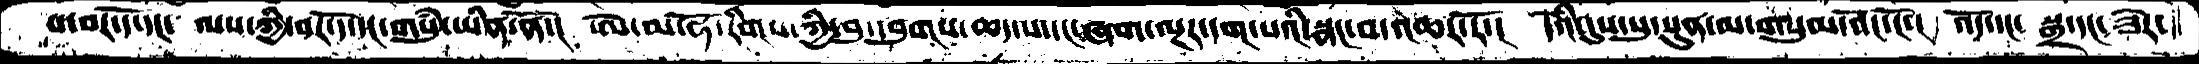པ་བར་དོ་དང་ ལས་ཀྱི་བར་དོ་དང་གསུཾ་ཡིན་ནོ་།  ཨེ་མ་ཧོ་རིགས་ཀྱི་བུ་དབུགས་ཆད་པ་དང་ཞག་ལྔར་དག་པའི་སྣང་བ་འཆར་རོ་།  དེའི་དུས་སུ་སུན་མ་གསུམ་འོང་ངོ་།  འོད་དང་  སྒྲ་དང་ཟེར་
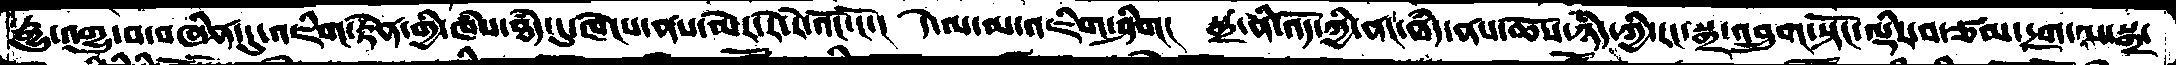རྒྱུ་འགྱུ་བ་བཞིན་དུ་འཇིག་རྟེན་གྱི་ཁཾས་ཐཾད་དུ་ཁེངས་ནས་མེར་རེ་རེ་འོང་ངོ་།  དེ་ལ་མ་འཇིག་ཤིག།  སྒྲ་ནི་འོད་ཀྱི་ནང་ཐཾད་ནས་ཆོས་ཉིད་ཀྱི་རང་སྒྲ་འབྲུག་སྟོང་ལྡིར་བ་ཙམ་དྲག་ལ་སྒྲ་
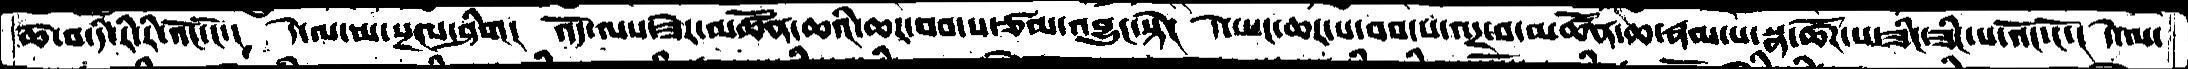ཆེ་བ་དི་རི་རི་འོང་ངོ་།  དེ་ལ་མ་སྔངས་ཤིག།  འོད་ལས་ཟེར་མཚོན་ཆའི་ཆར་བབ་པ་ཙམ་འབྱུང་སྟེ།  དེ་ཡང་ཆར་པ་བབ་པ་འདྲ་བ་མཚོན་ཆ་རྣམ་པ་སྣ་ཚོཌ་པ་ཟིང་ཟིང་པ་འོང་ངོ་།  དེ་ལ་
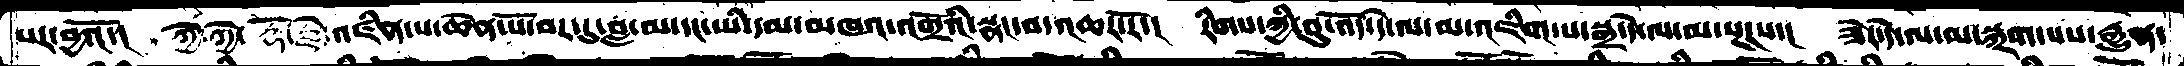པར་བྱོ་།  ཀྱེ་ཀྱེ་རྡོ་རྗེ་འཛིན་པ་ཆེན་པོ་བར་དུ་བླ་མ་དང་ཡི་དམ་མཁའ་འགྲོའི་སྣང་བ་འཆར་རོ་།  རིགས་ཀྱི་བུ་འོད་དེ་་ལ་མ་འཇིག་པ་སྒྲ་དེ་ལ་མ་སྔངཾཾཾས་།  ཟེར་དེ་ལ་མ་སྐྲག་པས་རྒྱུན་
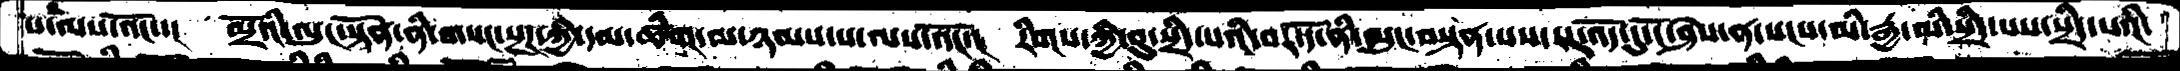པ་ལས་འོང་་།  མྲོའི་ལུང་སྟོན་ནི་གསང་སྔཌ་ཀྱི་དམ་ཚིག་མ་ཉམས་པ་ལས་འོང་།  རིགས་ཀྱི་བུ་སྲིད་པའི་བར་དོ་ནི་ལུང་བསྟན་པས་རང་འོད་དུ་ངོ་ཤེས་ན་སངས་མི་རྒྱ་མི་སྲིད་པས་སྲིད་པའི་
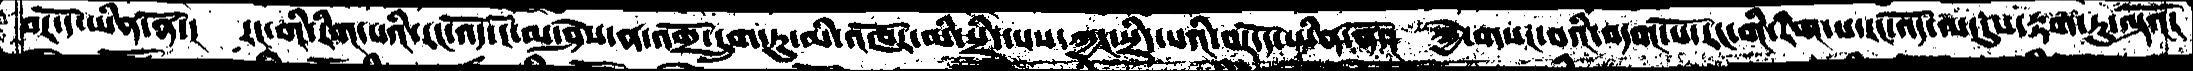བར་དོ་ཡིན་ནོ་།  རང་གི་རིག་པའི་རང་འོད་ངོ་མ་ཤེས་འགྲོ་དྲུག་ཏུ་མི་འཁོར་མི་སྲིད་པས་ཀྱང་སྲིད་པའི་བར་དོ་ཡིན་ནོ་།  ཀྱེ་གསང་བའི་བདག་པོ་རང་གི་རིག་པ་དང་འོད་ལ་དུས་རྟག་ཏུ་ལྟའོ།
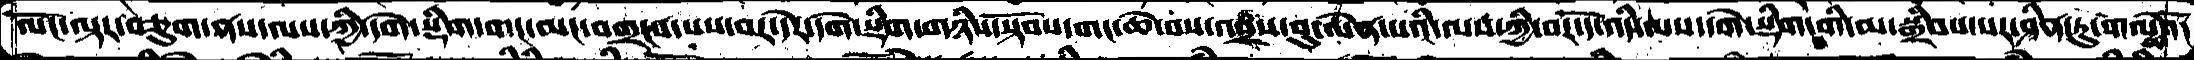ལོང་ལྟར་བཅུག་ནས་ལས་ཀྱི་དགེ་སྡིག་གང་མང་བགྲངས་པས་བར་དེར་དགེ་སྡིག་གཉིས་སྟོབས་གང་ཆེ་བས་འབྲས་བུ་ལེན་པའི་ལས་ཀྱི་བར་དོ་འདི་ལས་དགེ་སྡིག་གི་མ་སྒྲིབས་པར་ཤིན་ཏུ་གལྖེའོ།
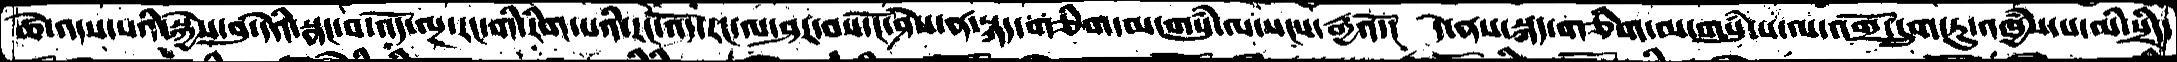ཚེ་འདས་པའི་སྐྱེས་བུ་དེའི་སྣང་བ་འོད་ལྔ་རང་གི་རིག་པའི་རང་འོད་རང་ལ་ཤར་བས་ངོ་ཤེས་ན་སྐད་གཅིག་མ་གསུཾ་ལ་སངས་རྒྱའོ་།  དེ་ནས་སྐད་གཅིག་མ་གསུཾ་པ་ལ་འགྲོ་དྲུག་ཏུ་འཁྱཾས་པ་མི་སྲིད་
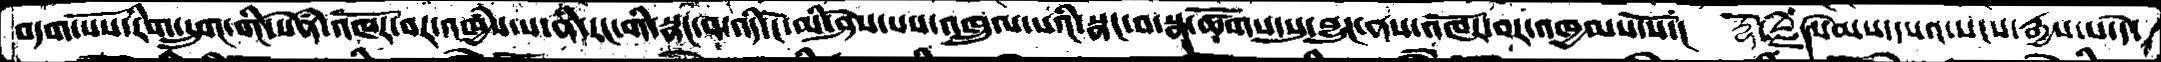བདག་པོས་རིག་དྲུག་གི་སེཾན་འཁོར་བར་འཁྱཾས་པ་ནི་རང་གི་སྣང་བ་འདི་ངོ་མི་ཤེས་པས་འཁྲུལ་པའི་སྣང་བ་སྣ་ཚོགས་སུ་བྱུང་ནས་འཁོར་བར་འཁྱམས་སོ་།  རྡོ་རྗེ་སེམས་དཔའ་སངས་རྒྱས་པ་དེ་
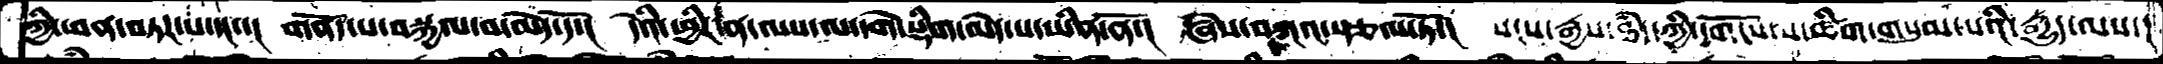ཀྱི་ཕན་བཏཌ་པ་དང་།  གནོད་པ་བསྐྱལ་བ་མེད་དོ་།  དེའི་ཕྱིར་ན་ལས་ལ་དགེ་སྡིག་མེད་པ་ཡིན་ནོ་།  ཞེས་བཀའ་སྩལ་ཏོ་།  སངས་རྒྱས་ཐཾད་ཀྱི་དགོངས་པ་ཚིག་གསུམ་པའི་རྒྱུད་ལས་།
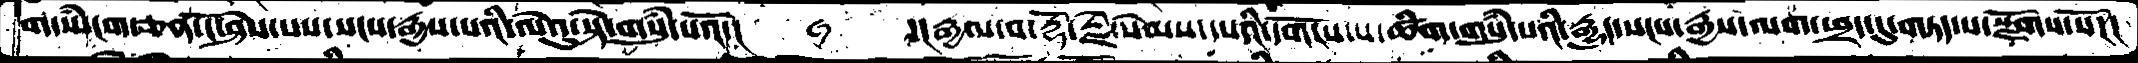ག་སཾ་ངག་ཅན་ངོ་ཤེས་པས་་སངས་རྒྱས་པའི་ལེའུ་སྟེ་གསུཾ་པའོ་།  ་།རྒྱལ་བ་རྡོ་རྗེ་སེམས་དཔའི་དགོངས་པ་ཚིག་གསུཾ་པའི་རྒྱུད་སངས་རྒྱས་ལག་ཕྲད་དུ་གཏད་པ་སྫོགས་སོ།།།
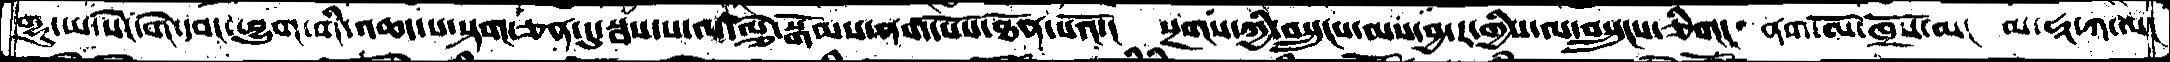གྷུ་ཡ་སེང་གེ་དབང་ཕྱུག་གི་འཆད་པ་སྟག་ཅན་དུ་སྦས་པ་ལ་ལྕེ་སྒོམས་ནག་པོས་ཐོན་པའོ་།  སྔགས་ཀྱི་བསྲུངས་མས་བྱ་ར་གྱིས་ལ་བསྲུངས་ཅིག།  ནག་མོ་ཁྲོས་མ།  མ་ཧཱ་ཀ་ལ།
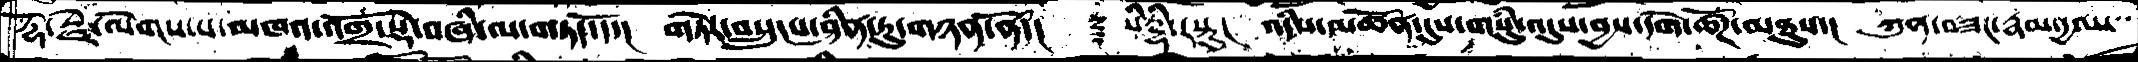རྡོ་རྗེ་ལེགས་པ་མཁའ་འགྲོ་སྡེ་བཞི་ལ་གཏད་དོ་། གཏེར་བསྲུངས་ཤིན་ཏུ་གཉན་ནོ་།  ༈ སིཏྡྷི་རསྟུ། འདིས་མཚོན་དུས་གསུཾ་འདུས་བྱས་དགེ་ཚོཌ་མཐུས་། ཀུན་བཟང་རྣམ་དྱལ་
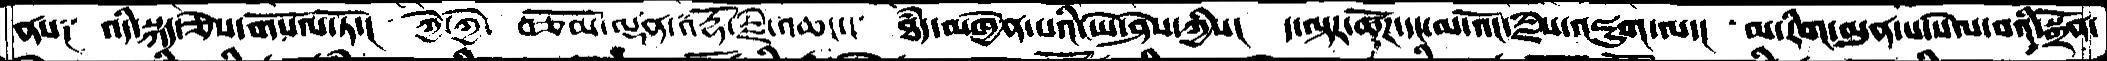ནས༑  འདི་སྐད་ཅེས་གསོལ་ཏོ་།  ཀྱེ་ཀྱེ་ བཅོམ་ལྡན་རྡོ་རྗེ་འཆང་་།  ཐཾད་མཁྱེན་པའི་ཡེ་ཤེས་ཀྱིས་།  ད་ལྟ་ཚོཌ་དང་མ་འོང་རྗེས་འཇུག་ལ་།  མ་རིག་མུན་པ་སེལ་བའི་སྒྲོན་
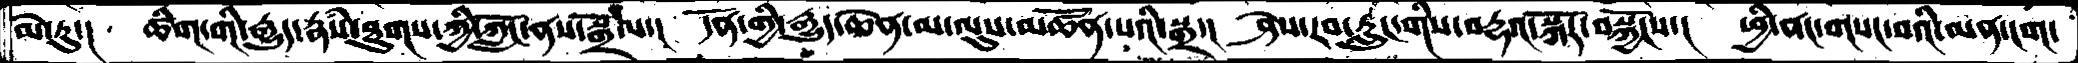མེ་ཏུ་།   ཚིག་གི་རྒྱུད་རྣཾས་ཐུགས་ཀྱི་ཀློང་ནས་སྒྲོལ་།  དོན་གྱི་རྒྱུད་ཆེན་མ་ལུས་མཚོན་པའི་སྒྲ་།  ཤེས་རབ་རླུང་གིས་བརྡའ་སྐོར་བསྐྱོངས་།  ཕྱི་ནང་གསང་བའི་མན་ངག་
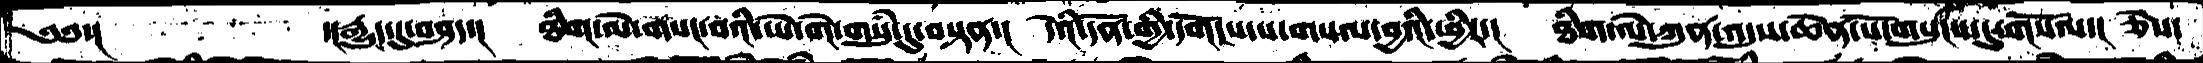༄༅་།         ་།རྒྱུད་དུ་བཤད་།   ཐིག་ལེ་གསང་བའི་ཡི་གེ་གསུཾ་དུ་བསྟན་།  དེའི་དོན་གྱི་དགོངས་པ་གསལ་བྱའི་ཕྱིར་།  ཐིག་ལེ་ཀུན་འདུས་ཆེན་པོ་གསུངས་དུ་གསོལ་།  ཅེས་
